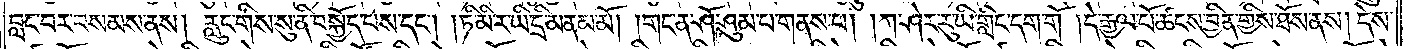བླང་བར་བསམས་ནས། རླུང་གིས་སུ་ནི་བསྐྱོད་པས་དང༌། །ཏི་མི་ར་ཡི་དྲི་མནམ་མོ། །གང་ན་ཤོ་ཤུམ་པ་གནས་པ། །ཀ་ཤེར་རུ་ཡི་གླིང་དག་གོ །དེ་རྒྱལ་པོ་ཚངས་བྱིན་གྱིས་ཐོས་ནས། དེས་
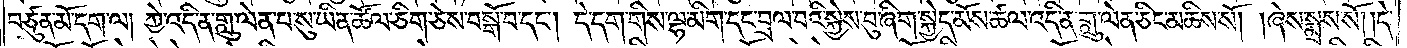བཙུན་མོ་དག་ལ། ཀྱེ་འདི་ན་གླུ་ལེན་པ་སུ་ཡིན་ཚོལ་ཅིག་ཅེས་བསྒོ་བ་དང༌། དེ་དག་གིས་ལྷ་མིག་དང་བྲལ་བའི་སྐྱེས་བུ་ཞིག་སྐྱེད་མོས་ཚལ་འདི་ན་གླུ་ལེན་ཅིང་མཆིས་སོ། །ཞེས་སྨྲས་སོ། །དེ་
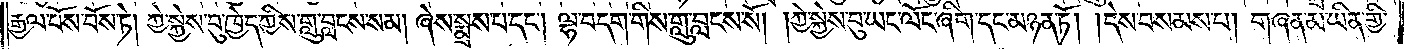རྒྱལ་པོས་བོས་ཏེ། ཀྱེ་སྐྱེས་བུ་ཁྱེད་ཀྱིས་གླུ་བླངས་སམ། ཞེས་སྨྲས་པ་དང༌། ལྷ་བདག་གིས་གླུ་བླངས་སོ། །ཀྱེ་སྐྱེས་བུ་ཡང་ལོང་ཞིག་དང་མཉན་ཏོ། །དེས་བསམས་པ། གཞན་མ་ཡིན་གྱི་
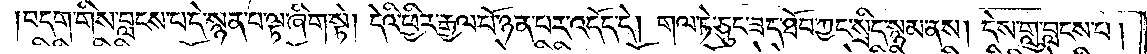བདག་གིས་བླངས་པ་དེ་སྙན་པ་ལྟ་ཞིག་སྟེ། དེའི་ཕྱིར་རྒྱལ་པོ་ཉན་པར་འདོད་དེ། གལ་ཏེ་ཅུང་ཟད་ཐོབ་ཀྱང་སྲིད་སྙམ་ནས། དེས་གླུ་བླངས་པ།
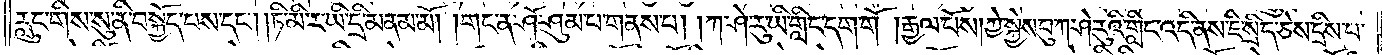རླུང་གིས་སུ་ནི་བསྐྱོད་པས་དང༌། །ཏི་མི་ར་ཡི་དྲི་མནམ་མོ། །གང་ན་ཤོ་ཤུམ་པ་གནས་པ། །ཀ་ཤེ་རུ་ཡི་གླིང་དག་གོ །རྒྱལ་པོས། ཀྱེ་སྐྱེས་བུ་ཀ་ཤེ་རུའི་གླིང་འདི་ནས་ཇི་སྲིད་ཅེས་དྲིས་པ་
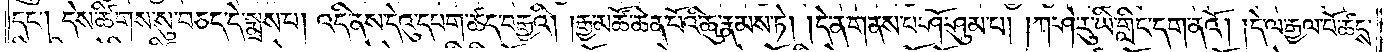དང༌། དེས་ཚིགས་སུ་བཅད་དེ་སྨྲས་པ། འདི་ནས་དེའུ་དཔག་ཚད་བརྒྱའི། །རྒྱ་མཚོ་ཆེན་པོའི་ཆུ་རྣམས་ཏེ། །དེ་ན་གནས་པ་ཤོ་ཤུམ་པ། །ཀ་ཤེ་རུ་ཡི་གླིང་དག་ནའོ། །དེ་ལ་རྒྱལ་པོ་ཚངས་
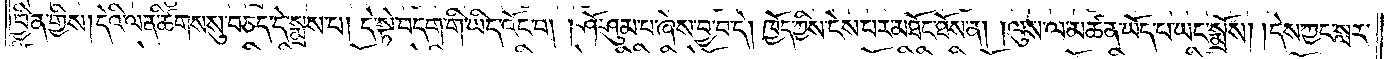བྱིན་གྱིས། དེའི་ལན་ཚིགས་སུ་བཅད་དེ་སྨྲས་པ། དེ་སྟེ་བདག་གི་ཡིད་འོང་བ། །ཤོ་ཤུམ་པ་ཞེས་བྱ་བ་དེ། ཁྱོད་ཀྱིས་ངེས་པར་མཐོང་ཐོས་ན། །ལུས་ལ་མཚན་ཡོད་པ་ཡང་སྨྲོས། །དེས་ཀྱང་སླར་
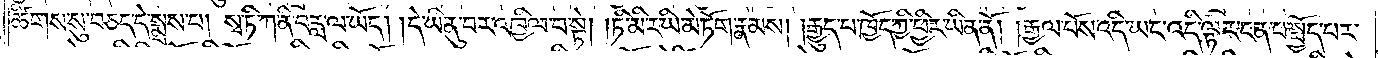ཚིགས་སུ་བཅད་དེ་སྨྲས་པ། སྭ་ཏི་ཀ་ནི་བརླ་ལ་ཡོད། །དེ་ཡི་ནུ་བར་འཁྱིལ་བ་སྟེ། །ཏི་མི་ར་ཡི་མེ་ཏོག་རྣམས། །རྒྱུད་པ་ཁྱོད་ཀྱི་ཕྱིར་ཡིན་ནོ། །རྒྱལ་པོས་འདི་ཡང་འདི་ལྟར་ངན་པ་སྤྱོད་པར་
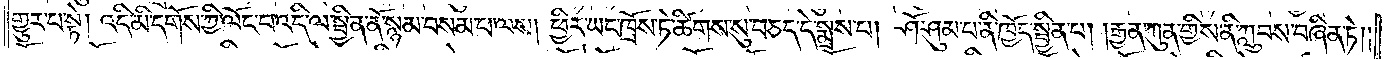གྱུར་པ་སྟེ། འདི་མི་དགོས་ཀྱི་ལོང་བ་འདི་ལ་སྦྱིན་ནོ་སྙམ་བསམ་པ་ལས། ཕྱིར་ཡང་ཁྲོས་ཏེ་ཚིགས་སུ་བཅད་དེ་སྨྲས་པ། ཤོ་ཤུམ་པ་ནི་ཁྱོད་སྦྱིན་པ། །རྒྱན་ཀུན་གྱིས་ནི་ཀླུབས་བཞིན་ཏེ།
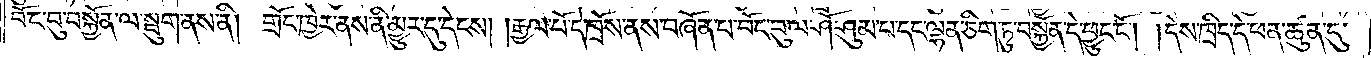བོང་བུ་བསྐྱོན་ལ་སྦུག་ནས་ནི། གྲོང་ཁྱེར་ནས་ནི་མྱུར་དུ་དེངས། །རྒྱལ་པོ་དེ་ཁྲོས་ནས་བཞོན་པ་བོང་བུ་ལ་ཤོ་ཤུམ་པ་དང་ལྷན་ཅིག་ཏུ་བསྐྱོན་དེ་ཕྱུང་ངོ༌། །དེས་ཁྲིད་དེ་ཕན་ཚུན་དུ་
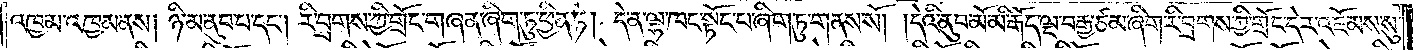འཁྱམ་འཁྱམ་ནས། ཉི་མ་ནུབ་པ་དང༌། རི་བྲགས་ཀྱི་གྲོང་གཞན་ཞིག་ཏུ་ཕྱིན་ཏེ། དེ་ན་ལྷ་ཁང་སྟོང་པ་ཞིག་ཏུ་གནས་སོ། །དེའི་ནུབ་མོ་མི་རྒོད་ལྔ་བརྒྱ་ཙམ་ཞིག་རི་བྲགས་ཀྱི་གྲོང་དེར་འཇོམས་སུ་
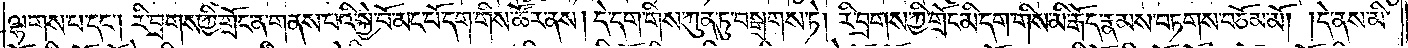ལྷགས་པ་དང༌། རི་བྲགས་ཀྱི་གྲོང་ན་གནས་པའི་སྐྱེ་བོ་མང་པོ་དག་གིས་ཚོར་ནས། དེ་དག་གིས་ཀུན་ཏུ་བསྒྲགས་ཏེ། རི་བྲགས་ཀྱི་གྲོང་མི་དག་གིས་མི་རྒོད་རྣམས་བཏགས་བཅོམ་མོ། །དེ་ནས་མི་
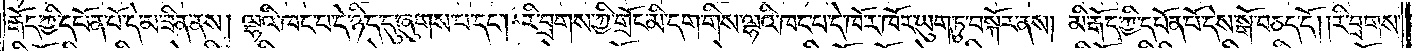རྒོད་ཀྱི་དཔོན་པོ་དེ་མ་ཟིན་ནས། ལྷའི་ཁང་པ་དེ་ཉིད་དུ་ཞུགས་པ་དང༌། རི་བྲགས་ཀྱི་གྲོང་མི་དག་གིས་ལྷའི་ཁང་པ་དེ་ཁོར་ཁོར་ཡུག་ཏུ་བསྐོར་ནས། མི་རྒོད་ཀྱི་དཔོན་པོ་དེས་སྒོ་བཅད་དོ། །རི་བྲགས་
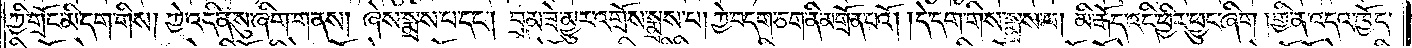ཀྱི་གྲོང་མི་དག་གིས། ཀྱེ་འདི་ན་སུ་ཞིག་གནས། ཞེས་སྨྲས་པ་དང༌། བྲམ་ཟེ་མྱུར་འགྲོས་སྨྲས་པ། ཀྱེ་བདག་ཅག་ནི་མགྲོན་པའོ། །དེ་དག་གིས་སྨྲས་པ། མི་རྒོད་འདི་ཕྱིར་ཕྱུང་ཞིག །གྱི་ན་འདའ་ཁྱོད་
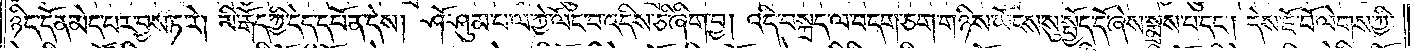ཉིད་དོན་མེད་པར་བྱས་ཏ་རེ། མི་རྒོད་ཀྱི་དེད་དཔོན་དེས། ཤོ་ཤུམ་པ་ལ་ཀྱེ་ལོང་བ་འདིས་ཅི་ཞིག་བྱ། འདི་བསྐྲད་ལ་བདག་ཅག་གཉིས་ཡོངས་སུ་སྤྱོད་དོ་ཞེས་སྨྲས་པ་དང༌། དེས་ཇོ་བོ་ལེགས་ཀྱི་
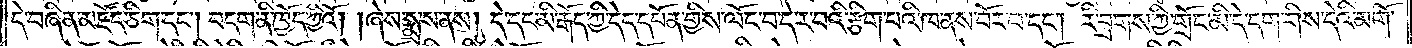དེ་བཞིན་མཛོད་ཅིག་དང༌། བདག་ནི་ཁྱོད་ཀྱིའོ། །ཞེས་སྨྲས་ནས། དེ་དང་མི་རྒོད་ཀྱི་དེད་དཔོན་གྱིས་ལོང་བ་དེ་ར་བའི་རྩིག་པའི་ཁ་ནས་བོར་བ་དང༌། རི་བྲགས་ཀྱི་གྲོང་མི་དེ་དག་གིས་དེའི་མགོ་
